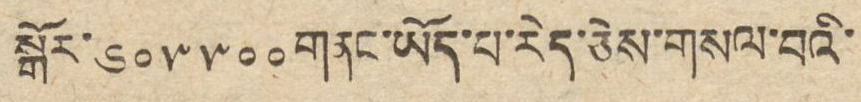སྒོར་༦༠༥༥༠༠ གནང་ཡོད་པ་རེད་ཅེས་གསལ་བའི་
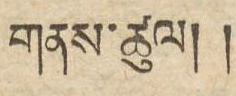གནས་ཚུལ། །
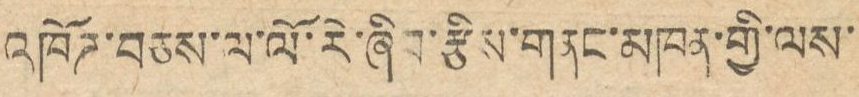འཁོཌ་བཅས་ལ་ལོ་རེ་ཞིབ་རྩིས་གནང་མཁན་གྱི་ལས་
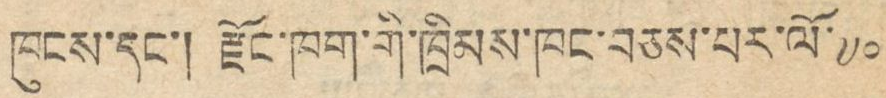ཁུངས་དང་། རྫོང་ཁག་གི་ཁྲིམས་ཁང་བཅས་པར་ལོ་༧༠
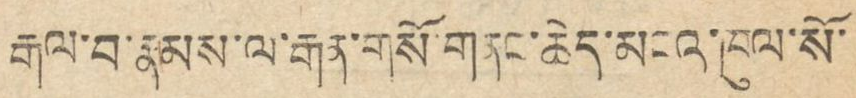རྒལ་བ་རྣམས་ལ་རྒན་གསོ་གནང་ཆེད་མངའ་ཁུལ་སོ་
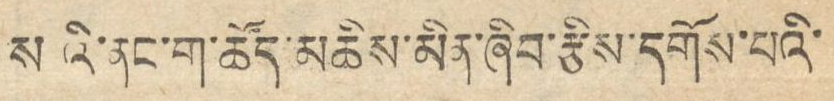སའི་ནང་ག་ཚོད་མཆིས་མིན་ཞིབ་རྩིས་དགོས་པའི་
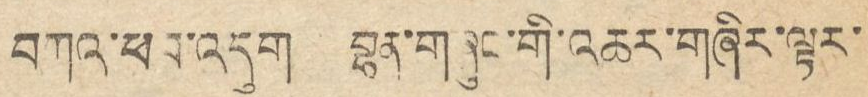བཀའ་ཕབ་འདུག བྷན་གཞུང་གི་འཆར་གཞིར་ལྟར་
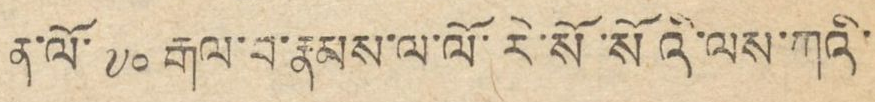ན་ལོ་ ༡༠ རྒལ་བ་རྣམས་ལ་ལོ་རེ་སོ་སོའི་ལས་ཀའི་
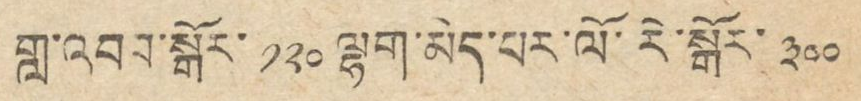གླ་འབབ་སྒོར་ ༡༢༠ ལྷག་མེད་པར་ལོ་རེ་སྒོར་ ༣༠༠
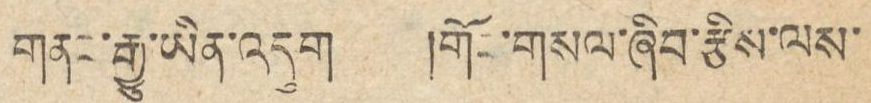གནང་རྒྱུ་ཡིན་འདུག །གོང་གསལ་ཞིབ་རྩིས་ལས་
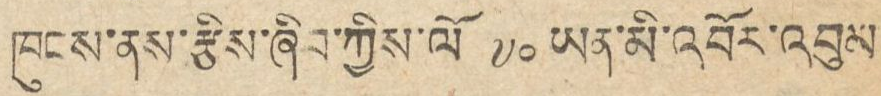ཁུངས་ནས་རྩིས་ཞིབ་ཀྱིས་ལོ ༧༠ ཡན་མི་འབོར་འབུམ
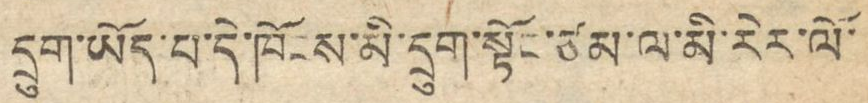དྲུག་ཡོད་པ་དེ་ཁོངས་མི་དྲུག་སྟོང་ཙམ་ལ་མི་རེར་ལོ་
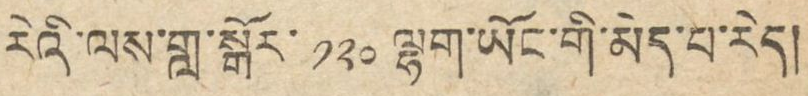རེའི་ལས་གླ་སྒོར་ ༡༢༠ ལྷག་ཡོང་གི་མེད་པ་རེད།
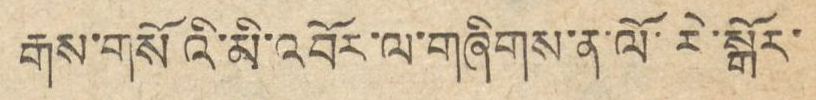རྒས་གསོའི་མི་འབོར་ལ་གཞིགས་ན་ལོ་རེ་སྒོར་
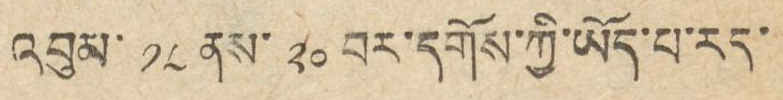འབུམ་ ༡༨ ནས་ ༢༠ བར་དགོས་ཀྱི་ཡོད་པ་རད་
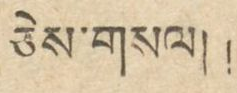ཅེས་གསལ།།
